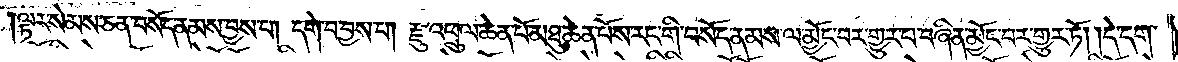ལྟར་སེམས་ཅན་བསོད་ནམས་བྱས་པ། དགེ་བ་བྱས་པ། རྫུ་འཕྲུལ་ཆེན་པོ་མཐུ་ཆེན་པོས་རང་གི་བསོད་ནམས་ལ་མྱོང་བར་གྱུར་བ་བཞིན་མྱོང་བར་གྱུར་ཏོ། །དེ་དག་
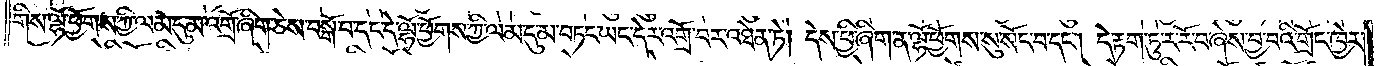གིས་ལྷོ་ཕྱོགས་ཀྱི་ལམ་དུ་མ་འགྲོ་ཞིག་ཅེས་བསྒོ་བ་དང་དེ་ལྷོ་ཕྱོགས་ཀྱི་ལམ་དུ་མ་བཏང་ཡང་དེར་འགྲོ་བར་འཐེན་ཏེ། དེས་ཕྱི་ཞིག་ན་ལྷོ་ཕྱོགས་སུ་སོང་བ་དང༌། དེ་རྟག་ཏུ་ར་རོ་བ་ཞེས་བྱ་བའི་གྲོང་ཁྱེར་
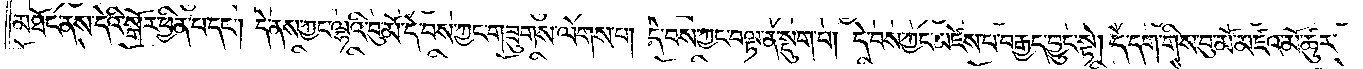མཐོང་ནས་དེའི་སྒོར་ཕྱིན་པ་དང༌། དེ་ནས་ཀྱང་ལྷའི་བུ་མོ་དེ་བས་ཀྱང་གཟུགས་ལེགས་པ། དེ་བས་ཀྱང་བལྟ་ན་སྡུག་པ། དེ་བས་ཀྱང་མཛེས་པ་བརྒྱད་བྱུང་སྟེ། དེ་དག་གིས་བུ་མོ་མཛའ་མོ་ཚུར་
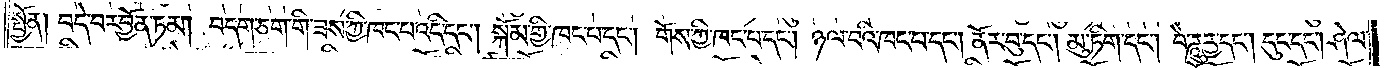སྤྱོན། བདེ་བར་བྱོན་ཏམ། བདག་ཅག་གི་ཟས་ཀྱི་ཁང་པ་འདི་དང༌། སྐོམ་གྱི་ཁང་པ་དང༌། གོས་ཀྱི་ཁང་པ་དང༌། ཉལ་བའི་ཁང་པ་དང༌། ནོར་བུ་དང༌། མུ་ཏིག་དང༌། བཻ་ཌཱུརྱ་དང༌། དུང་དང༌། ཤེལ་
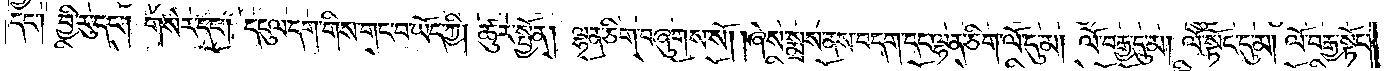དང༌། བྱི་རུ་དང༌། གསེར་དང༌། དངུལ་དག་གིས་གང་བ་ཡོད་ཀྱི། ཚུར་སྤྱོན། ལྷན་ཅིག་བཞུགས་སོ། །ཞེས་སྨྲས་ནས་བདག་དང་ལྷན་ཅིག་ལོ་དུ་མ། ལོ་བརྒྱ་དུ་མ། ལོ་སྟོང་དུ་མ། ལོ་བརྒྱ་སྟོང་
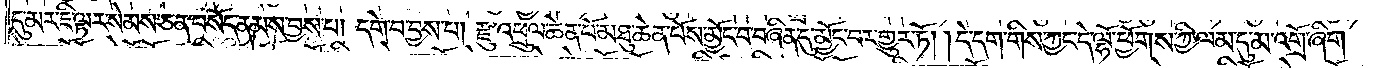དུ་མར་ཇི་ལྟར་སེམས་ཅན་བསོད་ནམས་བྱས་པ། དགེ་བ་བྱས་པ། རྫུ་འཕྲུལ་ཆེན་པོ་མཐུ་ཆེན་པོས་མྱོང་བ་བཞིན་དུ་མྱོང་བར་གྱུར་ཏོ། །དེ་དག་གིས་ཀྱང་དེ་ལྷོ་ཕྱོགས་ཀྱི་ལམ་དུ་མ་འགྲོ་ཞིག་
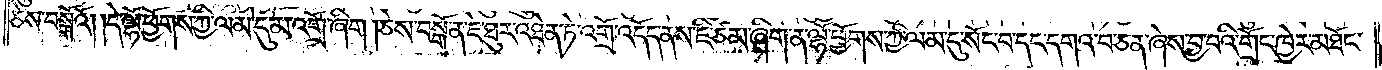ཅེས་བསྒོའོ། །དེ་ལྷོ་ཕྱོགས་ཀྱི་ལམ་དུ་མ་འགྲོ་ཞིག །ཅེས་བསྒོ་ན་ཇེ་ཐུར་འཐེན་ཏེ་འགྲོ་འདོད་ནས་ཇི་ཙམ་ཞིག་ན་ལྷོ་ཕྱོགས་ཀྱི་ལམ་དུ་སོང་བ་དང་དགའ་བ་ཅན་ཞེས་བྱ་བའི་གྲོང་ཁྱེར་མཐོང་
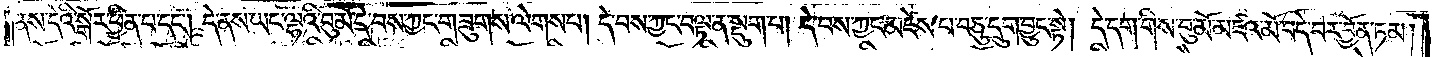ནས་དེའི་སྒོར་ཕྱིན་པ་དང༌། དེ་ནས་ཡང་ལྷའི་བུ་མོ་དེ་བས་ཀྱང་གཟུགས་ལེགས་པ། དེ་བས་ཀྱང་བལྟ་ན་སྡུག་པ། དེ་བས་ཀྱང་མཛེས་པ་བཅུ་དྲུག་བྱུང་སྟེ། དེ་དག་གིས་བུ་མོ་མཛའ་མོ་བདེ་བར་བྱོན་ཏམ།
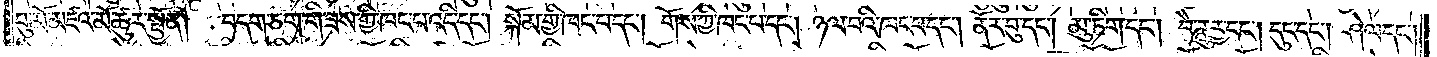བུ་མོ་མཛའ་མོ་ཚུར་སྤྱོན། བདག་ཅག་གི་ཟས་ཀྱི་ཁང་པ་འདི་དང༌། སྐོམ་གྱི་ཁང་པ་དང༌། གོས་ཀྱི་ཁང་པ་དང༌། ཉལ་བའི་ཁང་པ་དང༌། ནོར་བུ་དང༌། མུ་ཏིག་དང༌། བཻ་ཌཱུརྱ་དང༌། དུང་དང༌། ཤེལ་དང༌།
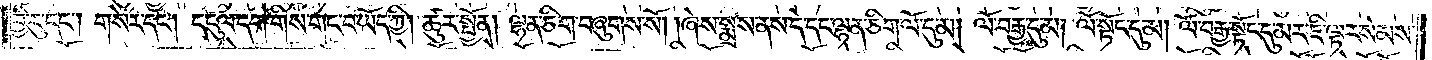བྱི་རུ་དང༌། གསེར་དང༌། དངུལ་དག་གིས་གང་བ་ཡོད་ཀྱི། ཚུར་སྤྱོན། ལྷན་ཅིག་བཞུགས་སོ། །ཞེས་སྨྲས་ནས་དེ་དང་ལྷན་ཅིག་ལོ་དུ་མ། ལོ་བརྒྱ་དུ་མ། ལོ་སྟོང་དུ་མ། ལོ་བརྒྱ་སྟོང་དུ་མར་ཇི་ལྟར་སེམས་
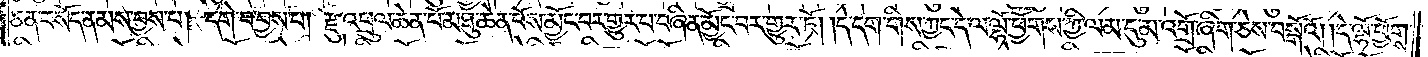ཅན་བསོད་ནམས་བྱས་པ། དགེ་བ་བྱས་པ། རྫུ་འཕྲུལ་ཆེན་པོ་མཐུ་ཆེན་པོས་མྱོང་བར་གྱུར་པ་བཞིན་མྱོང་བར་གྱུར་ཏོ། །དེ་དག་གིས་ཀྱང་དེ་ལ་ལྷོ་ཕྱོགས་ཀྱི་ལམ་དུ་མ་འགྲོ་ཞིག་ཅེས་བསྒོའོ། །དེ་ལྷོ་ཕྱོགས་
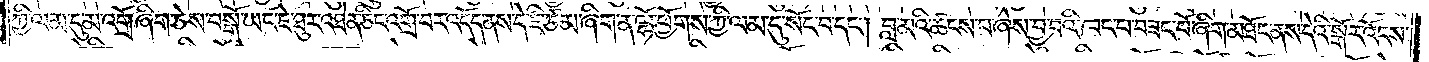ཀྱི་ལམ་དུ་མ་འགྲོ་ཞིག་ཅེས་བསྒོ་ཡང་ཇེ་ཐུར་འཐེན་ཅིང་འགྲོ་བར་འདོད་ནས་དེ་ཇི་ཙམ་ཞིག་ན་ལྷོ་ཕྱོགས་ཀྱི་ལམ་དུ་སོང་བ་དང༌། བླ་མའི་ཚངས་པ་ཞེས་བྱ་བའི་ཁང་པ་བཟང་པོ་ཞིག་མཐོང་ནས་དེའི་སྒོར་འོངས་
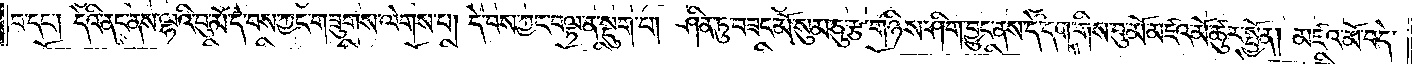བ་དང༌། དེའི་ནང་ནས་ལྷའི་བུ་མོ་དེ་བས་ཀྱང་གཟུགས་ལེགས་པ། དེ་བས་ཀྱང་བལྟ་ན་སྡུག་པ། ཤིན་ཏུ་བཟང་མོ་སུམ་ཅུ་རྩ་གཉིས་ཤིག་བྱུང་ནས་དེ་དག་གིས་བུ་མོ་མཛའ་མོ་ཚུར་སྤྱོན། མཛའ་མོ་བདེ་
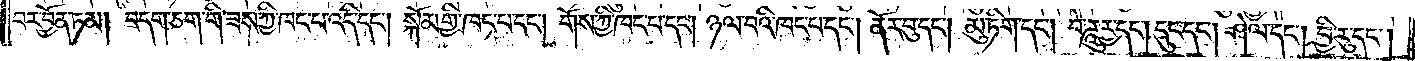བར་བྱོན་ཏམ། བདག་ཅག་གི་ཟས་ཀྱི་ཁང་པ་འདི་དང༌། སྐོམ་གྱི་ཁང་པ་དང༌། གོས་ཀྱི་ཁང་པ་དང༌། ཉལ་བའི་ཁང་པ་དང༌། ནོར་བུ་དང༌། མུ་ཏིག་དང༌། བེ་ཌཱུརྱ་དང༌། དུང་དང༌། ཤེལ་དང༌། བྱི་རུ་དང༌།
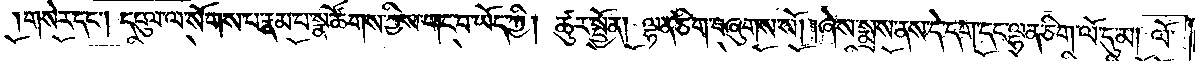གསེར་དང༌། དངུལ་ལ་སོགས་པ་རྣམ་པ་སྣ་ཚོགས་ཀྱིས་གང་བ་ཡོད་ཀྱི། ཚུར་སྤྱོན། ལྷན་ཅིག་བཞུགས་སོ། །ཞེས་སྨྲས་ནས་དེ་དག་དང་ལྷན་ཅིག་ལོ་དུ་མ། ལོ་
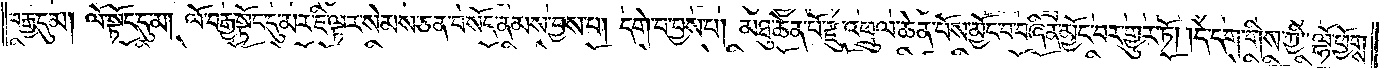བརྒྱ་དུ་མ། ལོ་སྟོང་དུ་མ། ལོ་བརྒྱ་སྟོང་དུ་མར་ཇི་ལྟར་སེམས་ཅན་བསོད་ནམས་བྱས་པ། དགེ་བ་བྱས་པ། མཐུ་ཆེན་པོ་རྫུ་འཕྲུལ་ཆེན་པོས་མྱོང་བ་བཞིན་མྱོང་བར་གྱུར་ཏོ། །དེ་དག་གིས་ཀྱི་ལྷོ་ཕྱོགས་
